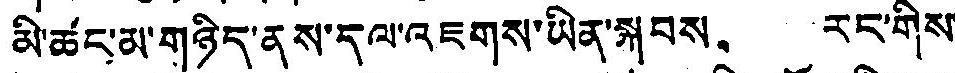མི་ཚང་མ་གཉིད་ནས་དལ་འཇགས་ཡིན་སྐབས， རང་གིས་
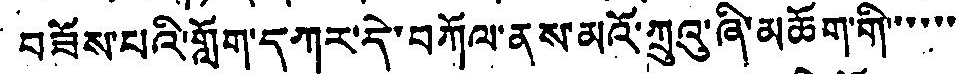བཟོས་པའི་གློག་དཀར་དེ་བཀོལ་ནས་མའོ་ཀྲུའུ་ཞི་མཆོག་གི་་་་་་
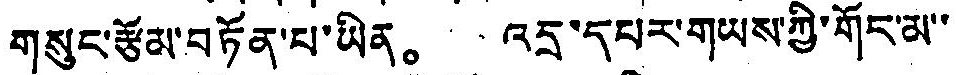གསུང་རྩོམ་བཏོན་པ་ཡིན。 འདྲ་དཔར་གཡས་ཀྱི་གོང་མ་་
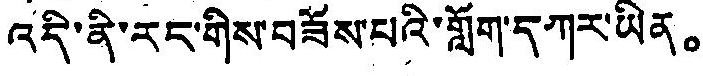འདི་ནི་རང་གིས་བཟོས་པའི་གློག་དཀར་ཡིན。
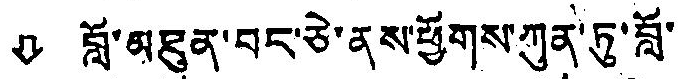⇩ བློ་མཐུན་བར་ཅེ་ནས་ཕྱོགས་ཀུན་ཏུ་བློ་
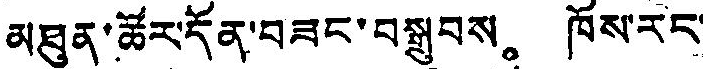མཐུན་ཚོར་དོན་བཟང་བསྒྲུབས。 ཁོས་རང་
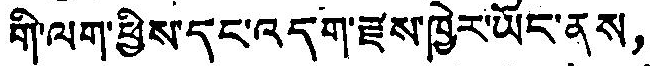གི་ལག་ཕྱིས་དང་འདུག་རྫས་ཁྱེར་ཡོང་ནས，
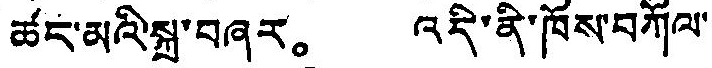ཚང་མའི་སྐྲ་བཞར。 འདི་ནི་ཁོས་བཀོལ་
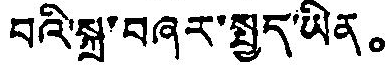བའི་སྐྲ་བཞུར་སྤྱད་ཡིན。
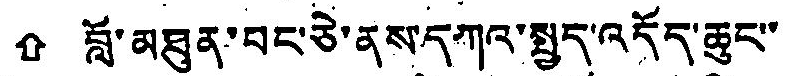⇧ བློ་མཐུན་བར་ཅེ་ནས་དཀའ་སྤྱད་འདོད་ཆུང་་
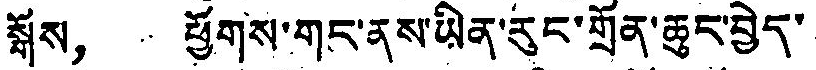སྒོས， ཕྱོགས་གང་ནས་ཡིན་རུང་གྲོན་ཆུང་བྱེད་
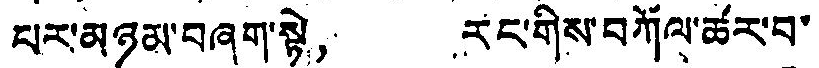པར་མཉམ་བཞག་སྟེ， རང་གིས་བཀོལ་ཚར་བ་
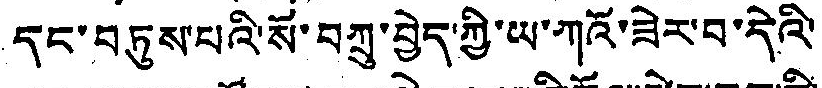དང་བཏུས་པའི་སོ་བཀྲུ་བྱེད་ཀྱི་ཡ་ཀའོ་ཟེར་བ་དེའི་
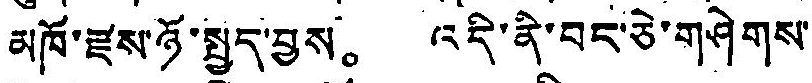མཁོ་རྫས་ཉོ་སྤྱད་བྱས。 འདི་ནི་བད་ཅེ་གཤེགས་
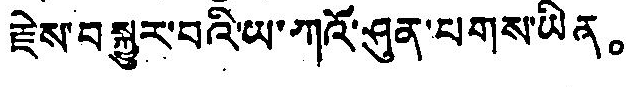རྗེས་བསྐྱུར་བའི་ཡ་ཀའོ་ཤུན་པགས་ཡིན。
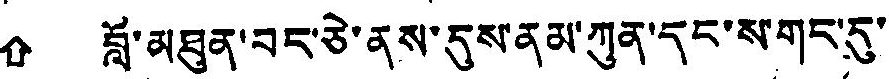⇧ བློ་མཐུན་བད་ཅེ་ནས་དུས་ནམ་ཀུན་དང་ས་གང་དུ་
